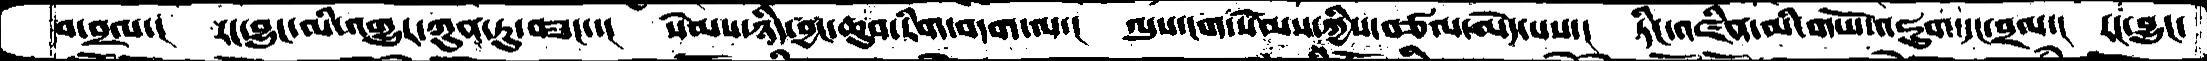བ་བྲལ་།  རང་བྱུང་མི་འགྱུར་ཀུན་ཏུ་བཟང་།   སེམས་ཉིད་བྱང་ཆུབ་རིག་བདག་ལ་།   ལུས་ངག་སེམས་ཀྱིས་བཙལ་མེད་པས་།  ཏིང་འཛིན་མི་གཡོ་འཇུག་དང་བྲལ་།  རང་བྱུང་
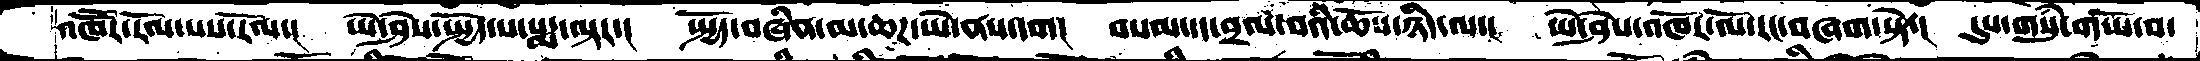འཁཽར་རོལ་པས་རོལ་།  ཡེ་ཤེས་སྤྱོད་པ་པདྨ་ལྟར་།   སྤྱོད་བཞིན་མ་ཆཌ་ཡེ་ནས་དག།  བསམ་དང་བྲལ་བའི་ཆོས་ཉིད་ལ་།  ཡེ་ཤེས་འཁོར་ལོ་རང་བཞག་སྟེ་།  དུས་གསུཾ་གཡོ་བ་
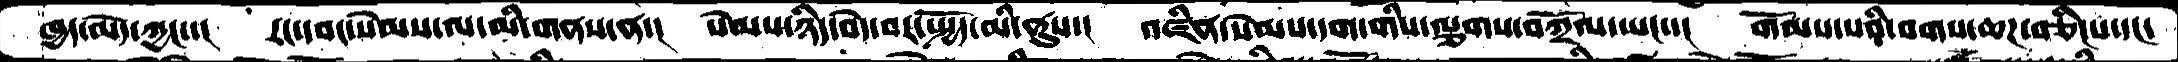ཁྱད་མེད་ཀྱང་།   རང་དབང་སེམས་ལ་མི་གནས་ན་།   སེམས་ཉིད་བདེ་བར་སྤྱོད་མི་ནུས་།   འཛིན་སེམས་དག་གིས་ལྕགས་བཀྲོལ་ཡང་།  གོམས་པའི་བགས་ཆཌ་བཅིངས་དང་
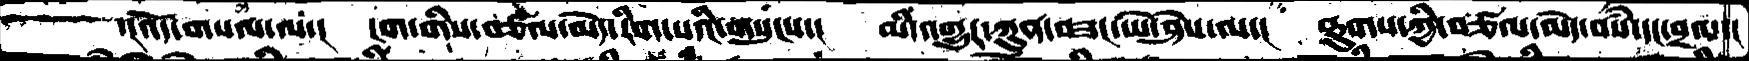་།འོད་གསལ་ལ་།  ངག་གིས་བཙལ་མེད་རིག་པའི་གསུངས་།  མི་འགྱུར་ཀུན་བཟང་ཡེ་ཤེས་ལ་།  ཐུགས་ཀྱི་བཙལ་མེད་བསཾ་དང་བྲལ་།
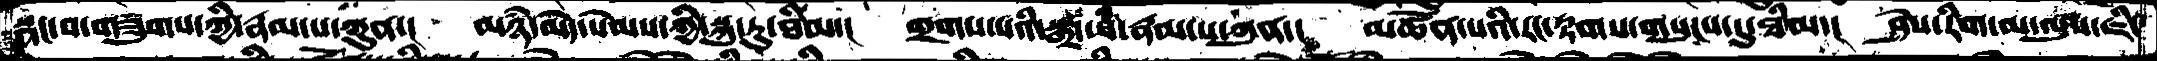སྣང་བ་གཟུགས་ཀྱི་རྣམ་པ་ཀུན་།  མཉཾ་མེད་སེམས་ཀྱི་སྐུ་རུ་ཐིམ་།  གྲགས་པའི་སྒྲ་ཡི་རྣམ་པ་ཀུན་།  མཚོན་པའི་རང་རྟགས་གསུངས་དུ་ཐིམ་།  ཤེས་རིག་མ་ལུས་ཇི་
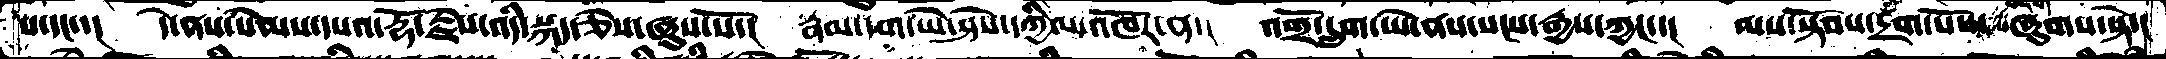པ་དང་་།  དེ་ནས་སེམས་དཔའ་རྡོ་རྗེས་འདི་སྐད་ཅེས་ཞུས་སོ་།  རྣམ་དག་ཡེ་ཤེས་དཀྱིལ་འཁོར་ན་།  འགྲོ་དྲུག་ཡེ་ནས་སངས་རྒྱས་ཀྱང་།  ལས་སྟོབས་དྲག་པོས་ཞུགས་སྟེ་།
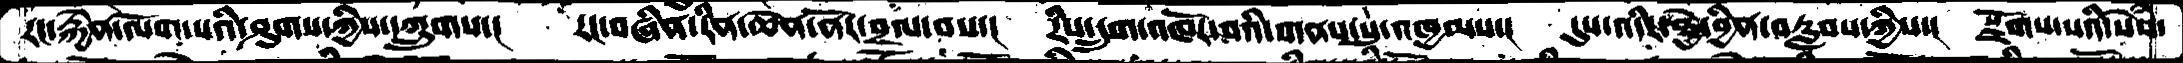རང་རྐྱེན་ལོག་པའི་ཤུགས་ཀྱིས་དཀྲུགས་།  རང་བཞིན་རིན་ཆེན་ནོང་བྲལ་བས་།  རིས་དྲུག་འཁོར་བའི་གནས་སུ་འཁྱམས་།  དུས་འདིར་ཐྱེ་བྱིན་བརླབས་ཀྱིས་། སྫོགས་པའི་སེཾས་
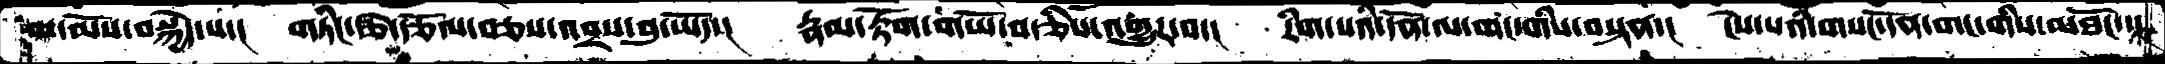ལ་མོས་བསྐྱེད་པ་།  གཏིང་རྩེ་རྩོལ་བཅས་འབྲས་བུ་ཡོད་།  རྣམ་རྟོག་གཡོ་བ་ཅིས་འགྱུར་བ་།  རིག་པའི་དོན་ལ་གང་གིས་བསྟན་།  ངེས་པའི་གསང་དོན་གང་གིས་མཐོང་་།
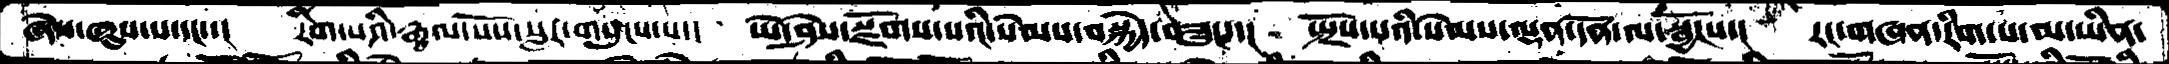ཞེས་ཞུས་པ་དང་།  རིག་པའི་རྒྱལ་པོས་སླར་གསུངས་པ་།  ཡེ་ཤེས་སྫོགས་པའི་སེམས་བསྐྱེད་བཟུང་་།  སྤྲོས་པའི་སེམས་ལྡན་དོན་ལ་སྦྱོངས་།  རང་གཞན་རིག་པ་མ་ཡིན་
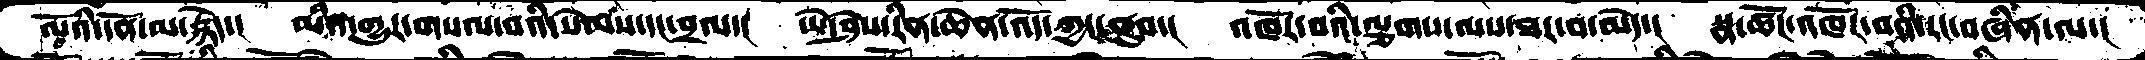ལོའི་དོན་མ་རྙེད་།  མི་འགྱུར་གསལ་བའི་སེམས་དང་བྲལ་།  ཡེ་ཤེས་རིན་ཆེན་འོད་ཀྱང་ནུབ་།  འཁོར་བའི་ལྕགས་ལས་ཐར་བ་མེད་།  སྣ་ཚོཌ་འཁོར་བའི་རང་བཞིན་ལ་།
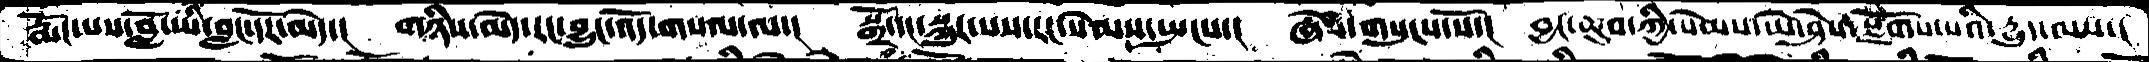རྨོང་པས་བློ་ཡི་བླང་དོར་མེད་།   གཉིས་མེད་རང་བྱུང་འོད་གསལ་ལ་།  སྒྲོ་དང་སྐུར་པས་རང་སེམས་སྤངས་།  ཞེས་གསུངས་སོ་།  བྱང་ཆུབ་ཀྱི་སེམས་ཡེ་ཤེས་སྫོགས་པའི་དྱུད་ལས་
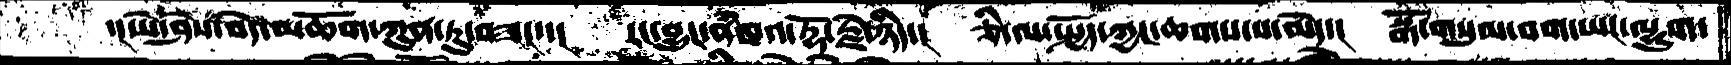ད།ཡེ་ཤེས་བདེ་མཆོག་ཀུན་ཏུ་བཟང་་།  རང་བྱུང་ནཾཁའ་རྡོ་རྗེ་ཉིད་།   ཅི་ལ་སྤྱོད་ཀྱང་ཆགས་པ་མེད་།   སྒོ་གསུཾ་བག་ཡང་ལྷུག་
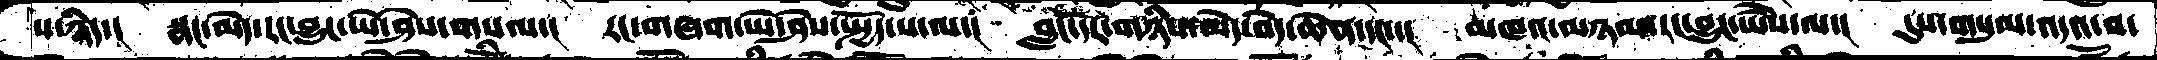པ་ཉིད་།  སྣང་མེད་རང་བྱུང་ཡེ་ཤེས་གསལ་།  རང་གཞག་ཡེ་ཤེས་སྤྱོད་པ་ལ་།  བླང་དོར་གཉིས་མེད་བདེ་ཆེན་དང་།  མཁའ་མཉམ་རང་བྱུང་ཡཻས་ལ་།  དུས་གསུམ་འདའ་བ་
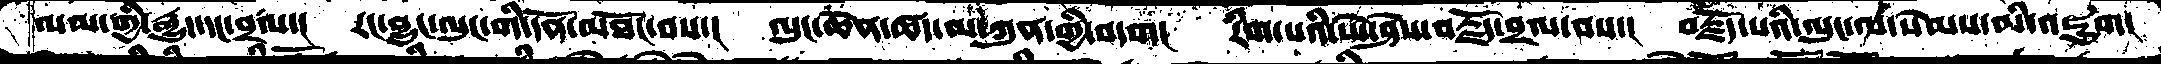ལམ་གྱི་རྒྱུ་དང་བྲལ་།  རང་བྱུང་ལུང་གི་དོན་མཐོང་བས་།  ལུང་ཆེན་ཚད་མ་ཀུན་གྱི་བདག།  རིག་པའི་ཡེ་ཤེས་བརྗོད་བྲལ་བས་།  བརྗོད་པའི་ལུང་ལ་སེམས་མི་འཇུག།
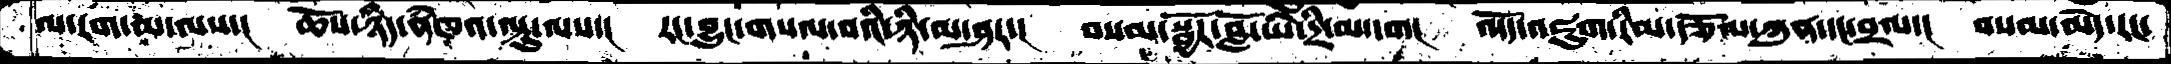ལ་རག་མ་ལས་།  ཆོས་ཉིད་ནཾཁའ་ལྟུ་ལས་།  རང་བྱུང་གསལ་བའི་ཉི་མ་ཤར་།  བསམ་སྦྱོར་བློ་ཡི་དྲི་མ་དག།  འདོད་འཇུག་རིམ་རྩོལ་ཀུན་དང་བྲལ་།  བསམ་མེད་རང་
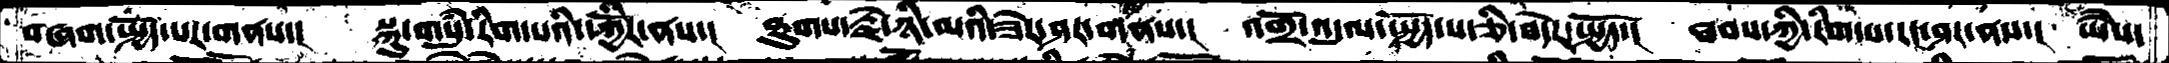བཞག་སྤྱོད་པར་གནས་།  སྐུ་གསུཾ་རིག་པའི་དཀྱོིར་ནས་།  ཐུགས་རྗེ་ཉི་མའི་ཟེར་ཤར་གནས་།  འགྲོ་འདུལ་སྤྱོད་པ་ཅི་བདེར་སྤྱོད་།  ཐབས་ཀྱི་རིག་པ་རང་ཤར་ནས་།  ཡཻས་
